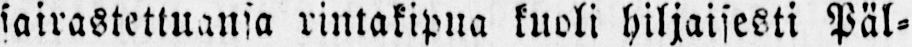sairastettuansa rintakipua kuoli hiljaisesti Päl-
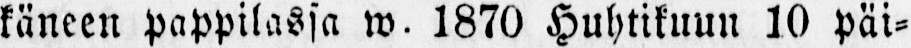käneen pappilassa w. 1870 Huhtikuun 10 päi-
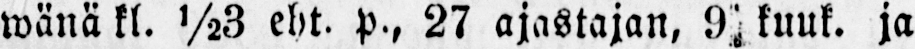wänä kl. ½3 eht. p., 27 ajastajan, 9 kuuk. ja
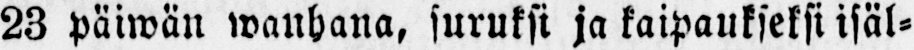23 päiwän wanhana, suruksi ja kaipaukseksi isäl-
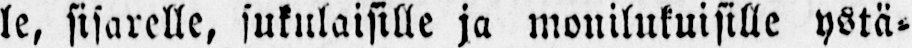le, sisarelle, sukulaisille ja monilukuisille ystä-
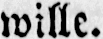wille.
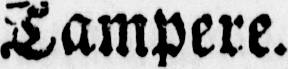Tampere.
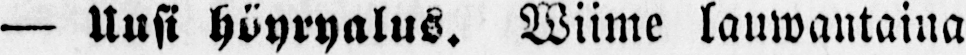— Uusi höyryalus. Wiime lauwantaina
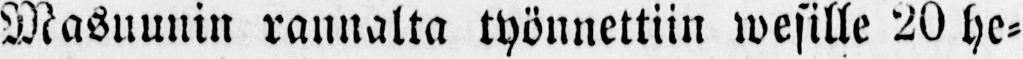Masuunin rannalta työnnettiin wesille 20 he-
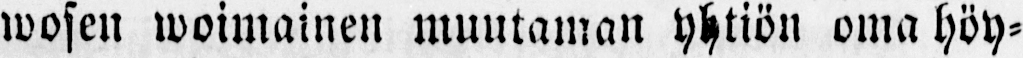wosen woimainen muutaman yhtiön oma höy-
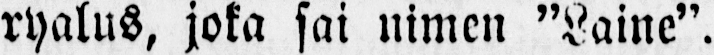ryalus, joka sai nimen ”Laine”.
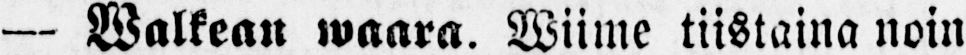— Walkean waara. Wiime tiistaina noin
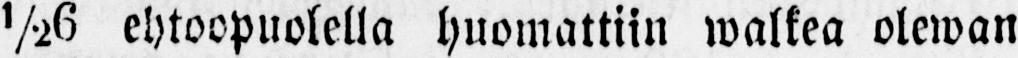½6 ehtoopuolella huomattiin walkea olewan
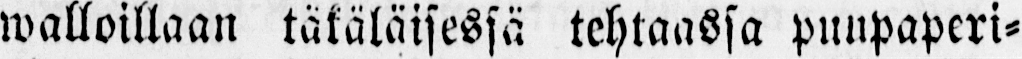walloillaan täkäläisessä tehtaassa puupaperi-
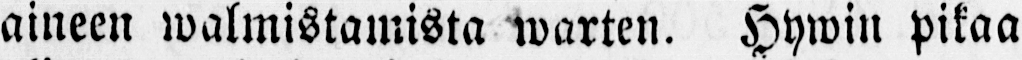aineen walmistamista warten. Hywin pikaa
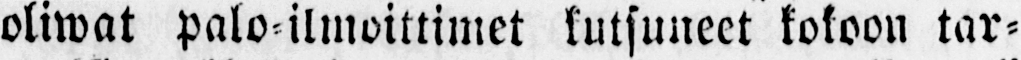oliwat palo-ilmoittimet kutsuneet kokoon tar-
